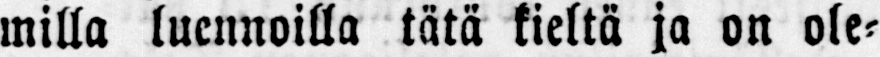milla luennoilla tätä kieltä ja on ole-
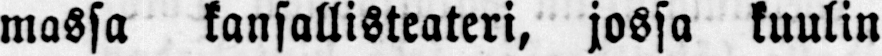massa kansallisteateri, jossa kuulin
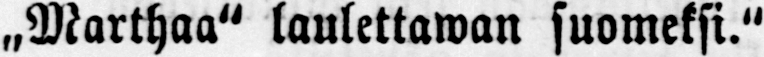„Marthaa" laulettawan suomeksi."
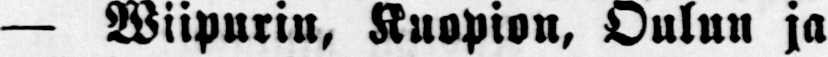— Wiipurin, Kuopion, Oulun ja
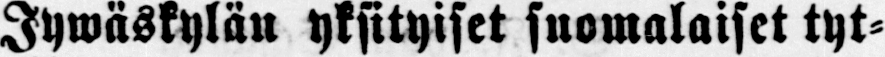Jywäskylän yksityiset suomalaiset tyt-
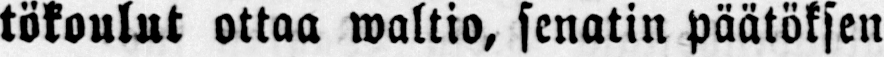tökoulut ottaa waltio, senatin päätöksen
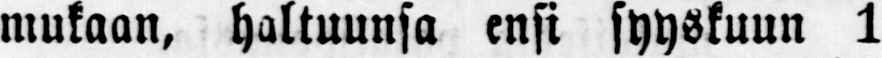mukaan, haltuunsa ensi syyskuun 1
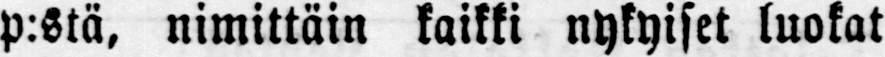p:stä, nimittäin kaikki nykyiset luokat
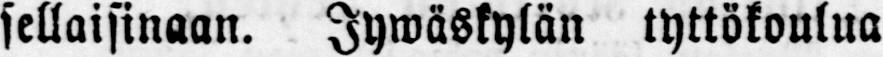sellaisinaan. Jywäskylän tyttökoulua
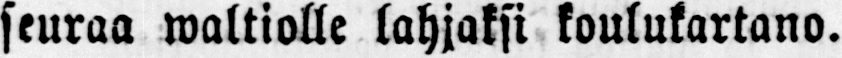seuraa waltiolle lahjaksi koulukartano.
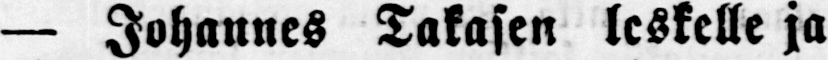— Johannes Takasen leskelle ja
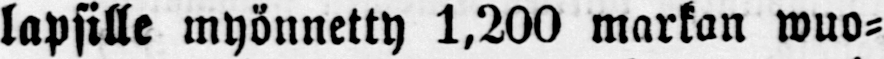lapsille myönnetty 1,200 markan wuo-
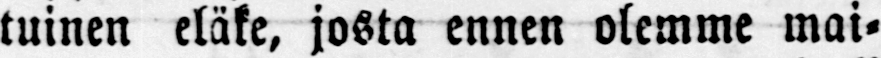tuinen eläke, josta ennen olemme mai-
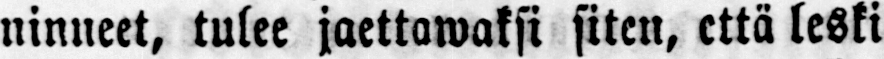ninneet, tulee jaettawaksi siten, että leski
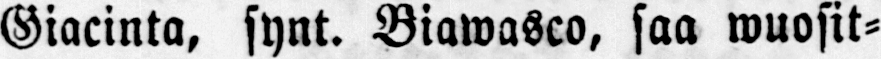Giacinta, synt. Biawasco, saa wuosit-
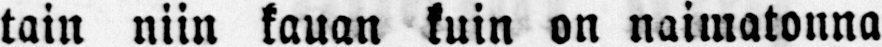tain niin kauan kuin on naimatonna
